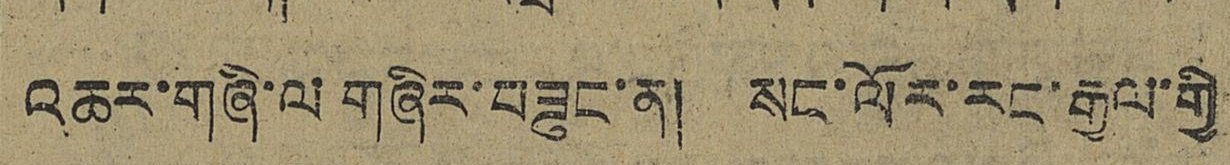འཆར་གཞི་ལ གཞིར་བཟུང་ན། སང་ལོར་རང་རྒྱལ་གྱི་
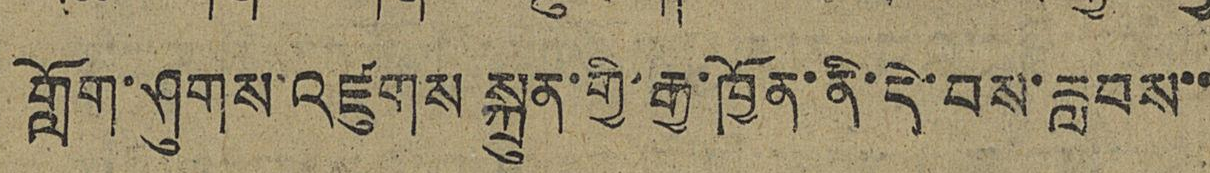གློག་ཤུགས་འཛུགས་སྐྲུན་གྱི་རྒྱ་ཁྱོན་ནི་དེ་བས་རླབས་་
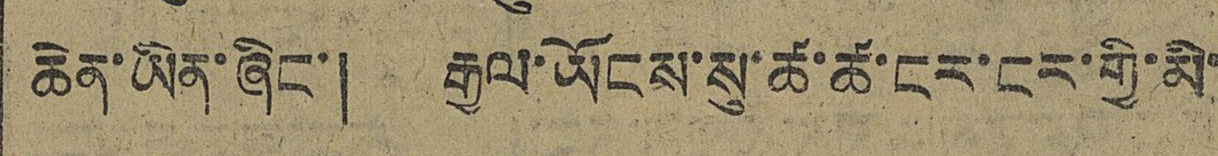ཆེན་ཡིན་ཞིང་། རྒྱལ་ཡོངས་སུ་ཚ་ཚ་ངར་ངར་གྱི་མི་
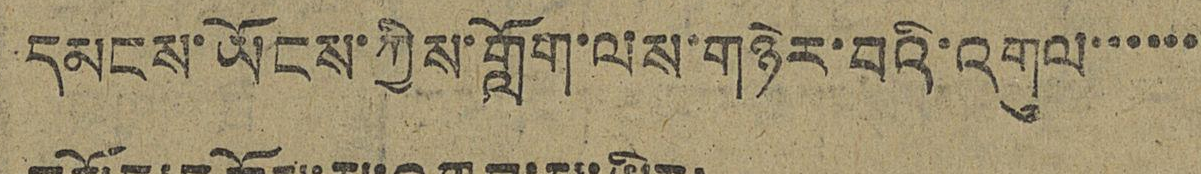དམངས་ཡོངས་ཀྱིས་གློག་ལས་གཉེར་བའི་འགུལ་་་་་
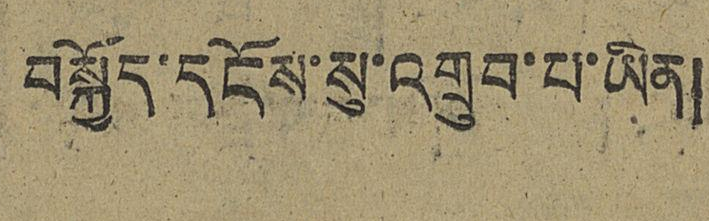བསྐྱོད་དངོས་སུ་འགྲུབ་པ་ཡིན།
